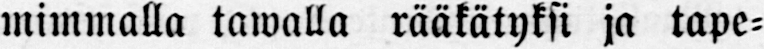mimmalla tawalla rääkätyksi ja tape-
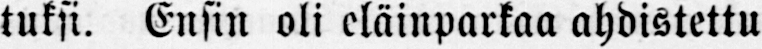tuksi. Ensin oli eläinparkaa ahdistettu
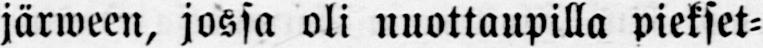järween, jossa oli nuottaupilla piekset-
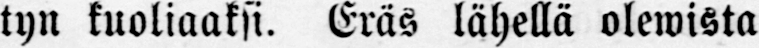tyn kuoliaaksi. Eräs lähellä olewista
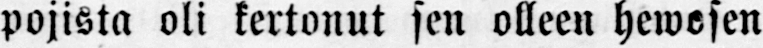pojista oli kertonut sen olleen hewosen
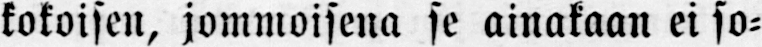kokoisen, jommoisena se ainakaan ei so-
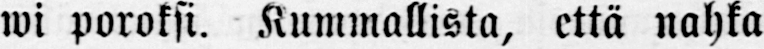wi poroksi. Kummallista, että nahka
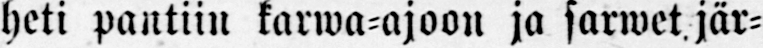heti pantiin karwa-ajoon ja sarwet,jär-
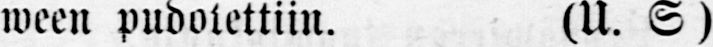ween pudotettiin. (U. S )
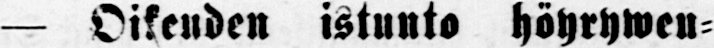— Oikeuden istunto höyrywen-
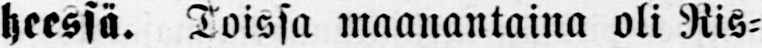heessä. Toissa maanantaina oli Ris-
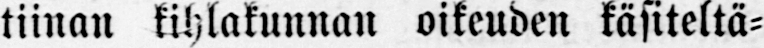tiinan kihlakunnan oikeuden käsiteltä-
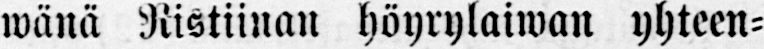wänä Ristiinan höyrylaiwan yhteen-
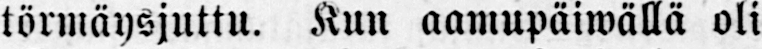törmäysjuttu. Kun aamupäiwällä oli
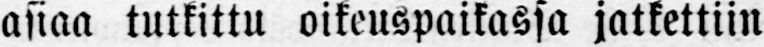asiaa tutkittu oikeuspaikassa jatkettiin
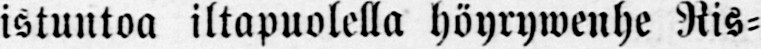istuntoa iltäpuolella höyrywenhe Ris-
